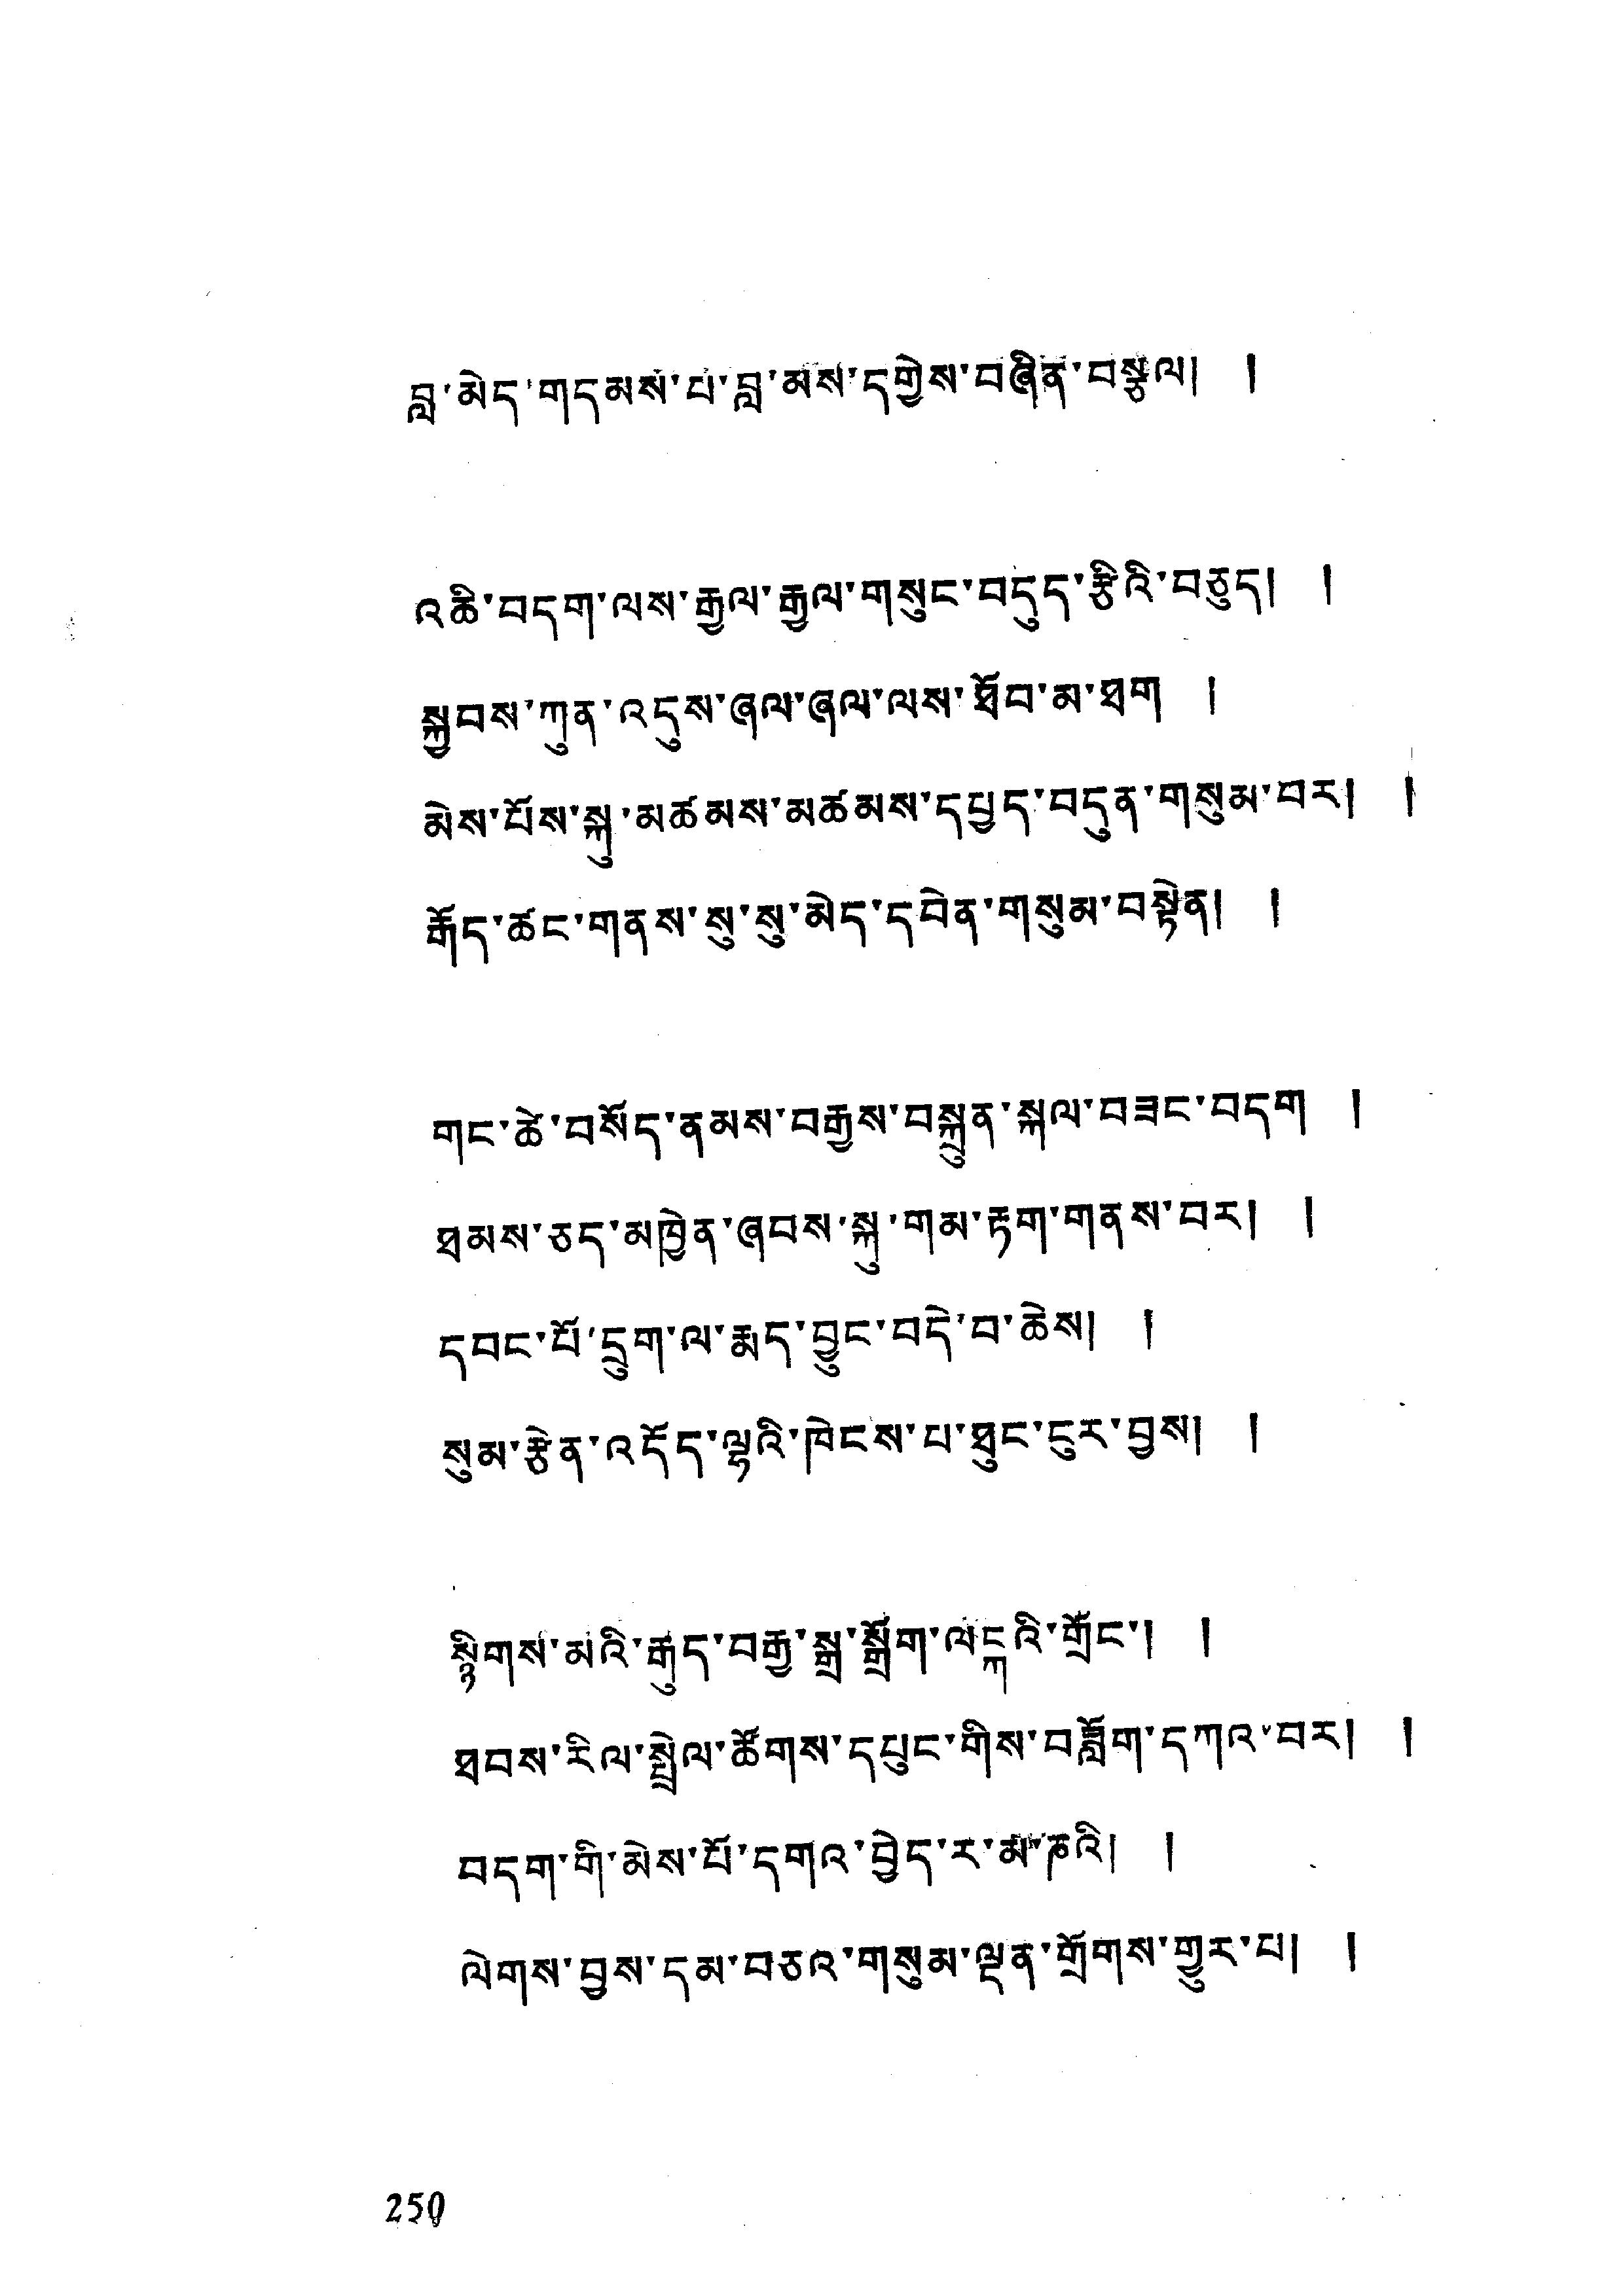བླ་མེད་གདམས་པ་བླ་མས་དགྱེས་བཞིན་བསྩལ། །
འཆི་བདག་ལས་རྒྱལ་རྒྱལ་གསུང་བདུད་རྩིའི་བཅུད། །
སྐྱབས་ཀུན་འདུས་ཞལ་ཞལ་ལས་ཐོབ་མ་ཐག །
མེས་པོས་སྐུ་མཚམས་མཚམས་དཔྱད་བདུན་གསུམ་བར། །
རྒོད་ཚང་གནས་སུ་སུ་མེད་དབེན་གསུམ་བསྟེན། །
གང་ཚེ་བསོད་ནམས་བརྒྱས་བསྐྲུན་སྐལ་བཟང་བདག །
ཐམས་ཅད་མཁྱེན་ཞབས་སྐུ་གམ་རྟག་གནས་བར། །
དབང་པོ་དྲུག་ལ་རྨད་བྱུང་བདེ་བ་ཆེས། །
སུམ་རྩེན་འདོད་ལྷའི་ཁེངས་པ་ཐུང་ངུར་བྱས། །
སྙིགས་མའི་རྒུད་བརྒྱ་སྒྲ་སྒྲོག་ལངྐའི་གྲོང་། །
ཐབས་རིལ་སྤྲེལ་ཚོགས་དཔུང་གིས་བཟློག་དཀའ་བར། །
བདག་གི་མེས་པོ་དགའ་བྱེད་ར་མ་ཎའི། །
ལེགས་བྱས་དམ་བཅའ་གསུམ་ལྡན་གྲོགས་གྱུར་པ། །
250
